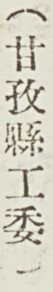（甘孜縣工委）
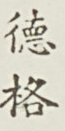德格
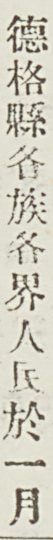德格縣各族各界人民於一月
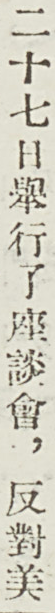二十七日舉行了座談會，反對美
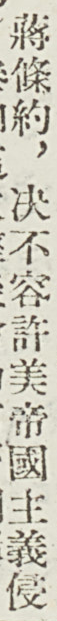蔣條約，絕不容許美帝國主義侵
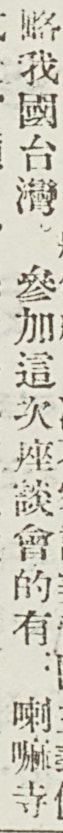略我國台灣。參加這次座談會的有：喇嘛寺
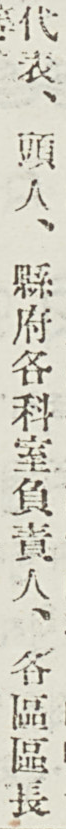代表、頭人、縣府各科室負責人、各區區長
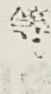等。
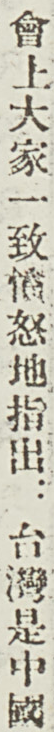會上大家一致憤怒地指出：台灣是中國
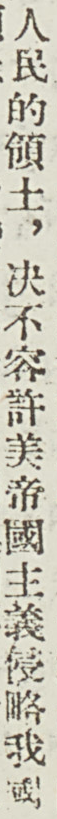人民的領土，絕不容許美帝國主義侵略我國
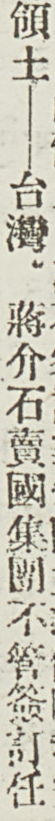領土——台灣。蔣介石賣國集團不管簽訂任
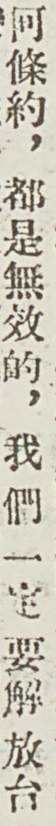何條約，都是無效的，我們一定 要解 放台
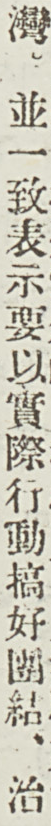灣。並一致表示要以實際行動搞好團結、治
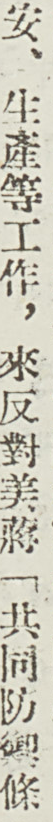安、生產等工作，來反對美蔣「共同防禦條
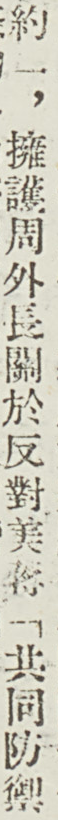約」，擁護周外長關於反對美蔣「共同防禦
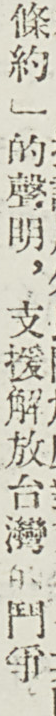條約」的聲明，支援解放台灣的鬥爭。
